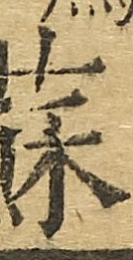蘇
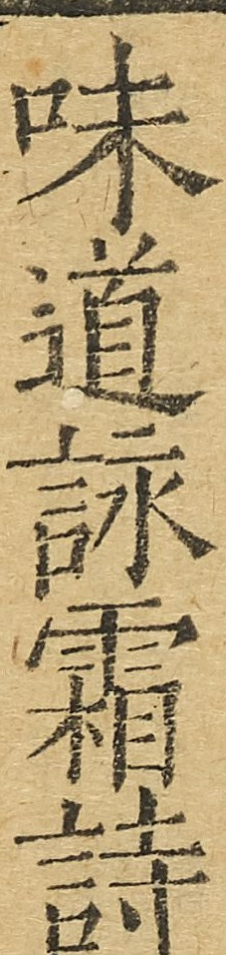味道詠霜詩
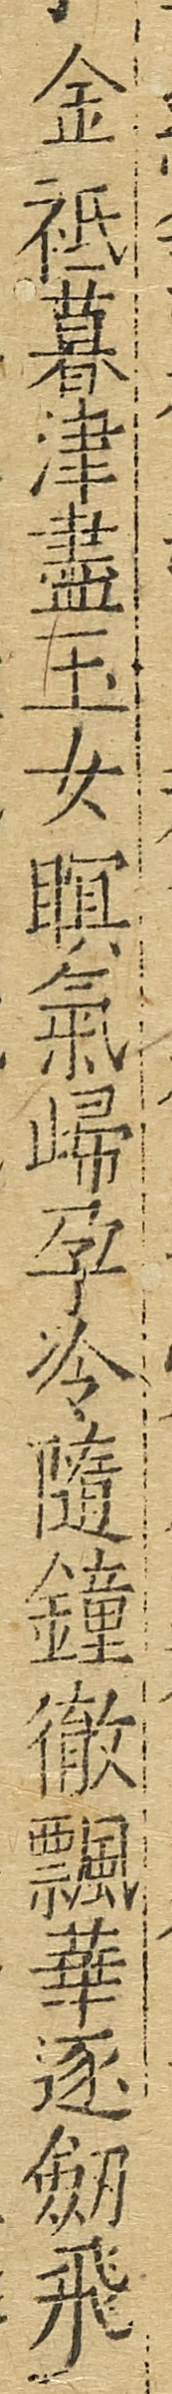金祗暮律盡玉女暝氣歸孕冷隨鐘徹飄華逐劍飛
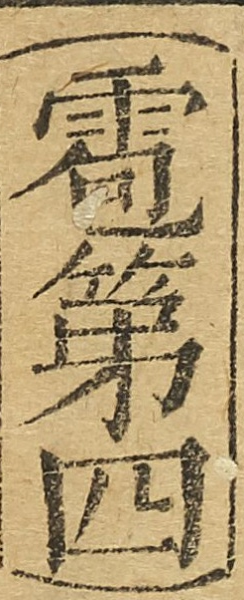雹第四
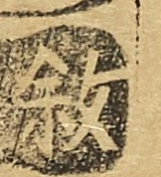敍
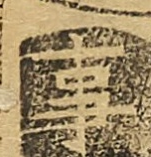事
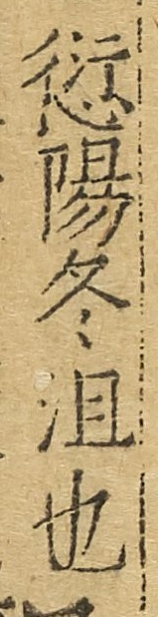愆陽冬沮也
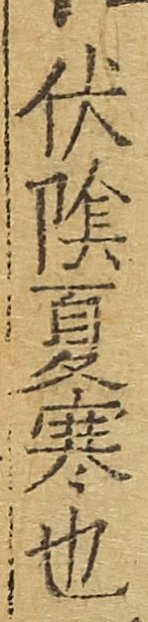伏陰夏寒也
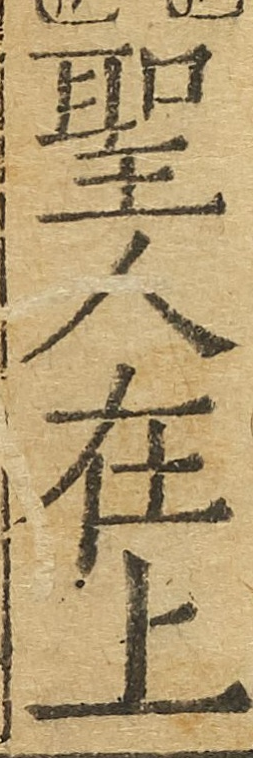聖人在上無
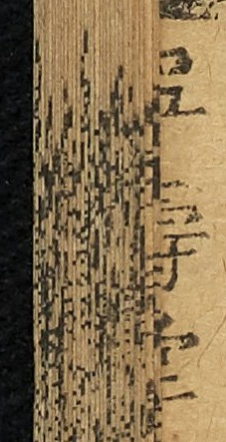寧壽堂
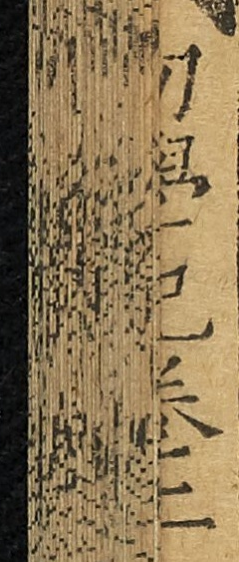初學記卷二
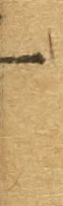十
